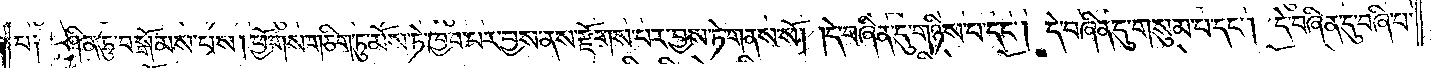པ༑ ཤིན་ཏུ་བསྒོམས་པས། ཕྱོགས་གཅིག་ཏུ་མོས་ཏེ་ཁྱབ་པར་བྱས་ནས་རྫོགས་པར་བྱས་ཏེ་གནས་སོ། །དེ་བཞིན་དུ་གཉིས་པ་དང༌། དེ་བཞིན་དུ་གསུམ་པ་དང༌། དེ་བཞིན་དུ་བཞི་པ་
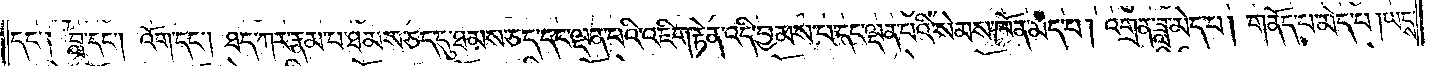དང༌། བླ་དང༌། འོག་དང༌། ཐད་ཀར་རྣམ་པ་ཐམས་ཅད་དུ་ཐམས་ཅད་དང་ལྡན་པའི་འཇིག་རྟེན་འདི་བྱམས་པ་དང་ལྡན་པའི་སེམས་ཁོན་མེད་པ། འགྲན་ཟླ་མེད་པ། གནོད་པ་མེད་པ། ཡངས་
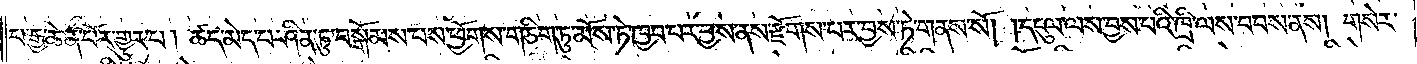པ་རྒྱ་ཆེན་པོར་གྱུར་པ། ཚད་མེད་པ་ཤིན་ཏུ་བསྒོམས་པས་ཕྱོགས་གཅིག་ཏུ་མོས་ཏེ་ཁྱབ་པར་བྱས་ནས་རྫོགས་པར་བྱས་ཏེ་གནས་སོ། །དངུལ་ལས་བྱས་པའི་ཁྲི་ལས་བབས་ནས། གསེར་
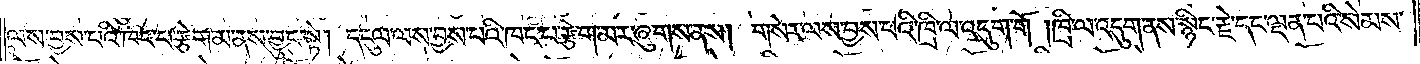ལས་བྱས་པའི་ཁང་པ་རྩེག་མ་ནས་བྱུང་སྟེ། དངུལ་ལས་བྱས་པའི་ཁང་པ་རྩེག་མར་ཞུགས་ནས། གསེར་ལས་བྱས་པའི་ཁྲི་ལ་འདུག་གོ །ཁྲི་ལ་འདུག་ནས་སྙིང་རྗེ་དང་ལྡན་པའི་སེམས་
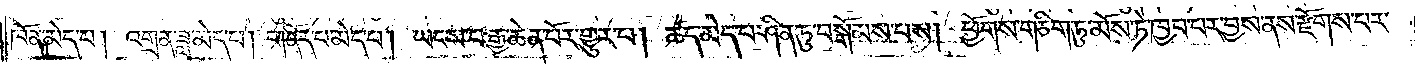ཁོན་མེད་པ། འགྲན་ཟླ་མེད་པ། གནོད་པ་མེད་པ། ཡངས་པ་རྒྱ་ཆེན་པོར་གྱུར་པ། ཚད་མེད་པ་ཤིན་ཏུ་བསྒོམས་པས། ཕྱོགས་གཅིག་ཏུ་མོས་ཏེ་ཁྱབ་པར་བྱས་ནས་རྫོགས་པར་
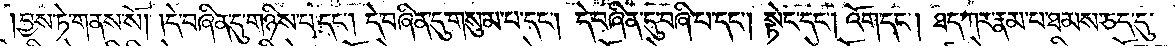བྱས་ཏེ་གནས་སོ། །དེ་བཞིན་དུ་གཉིས་པ་དང༌། དེ་བཞིན་དུ་གསུམ་པ་དང༌། དེ་བཞིན་དུ་བཞི་པ་དང༌། སྟེང་དང༌། འོག་དང༌། ཐད་ཀར་རྣམ་པ་ཐམས་ཅད་དུ་
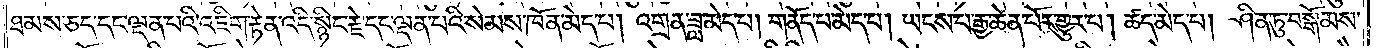ཐམས་ཅད་དང་ལྡན་པའི་འཇིག་རྟེན་འདི་སྙིང་རྗེ་དང་ལྡན་པའི་སེམས་ཁོན་མེད་པ། འགྲན་ཟླ་མེད་པ། གནོད་པ་མེད་པ། ཡངས་པ་རྒྱ་ཆེན་པོར་གྱུར་པ། ཚད་མེད་པ། ཤིན་ཏུ་བསྒོམས་
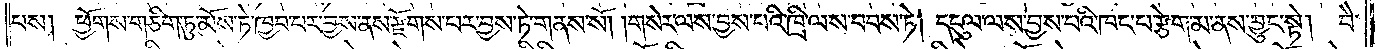པས། ཕྱོགས་གཅིག་ཏུ་མོས་ཏེ་ཁྱབ་པར་བྱས་ནས་རྫོགས་པར་བྱས་ཏེ་གནས་སོ། །གསེར་ལས་བྱས་པའི་ཁྲི་ལས་བབས་ཏེ། དངུལ་ལས་བྱས་པའི་ཁང་པ་རྩེག་མ་ནས་བྱུང་སྟེ། བཻ་
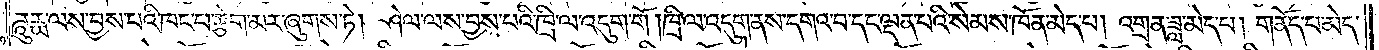ཌཱུརྻ་ལས་བྱས་པའི་ཁང་པ་རྩེག་མར་ཞུགས་ཏེ། ཤེལ་ལས་བྱས་པའི་ཁྲི་ལ་འདུག་གོ །ཁྲི་ལ་འདུག་ནས་དགའ་བ་དང་ལྡན་པའི་སེམས་ཁོན་མེད་པ། འགྲན་ཟླ་མེད་པ། གནོད་པ་མེད་
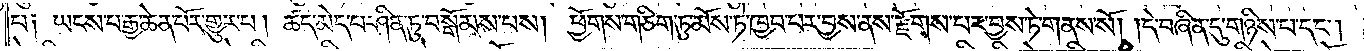པ༑ ཡངས་པ་རྒྱ་ཆེན་པོར་གྱུར་པ། ཚད་མེད་པ་ཤིན་ཏུ་བསྒོམས་པས། ཕྱོགས་གཅིག་ཏུ་མོས་ཏེ་ཁྱབ་པར་བྱས་ནས་རྫོགས་པར་བྱས་ཏེ་གནས་སོ། །དེ་བཞིན་དུ་གཉིས་པ་དང༌།
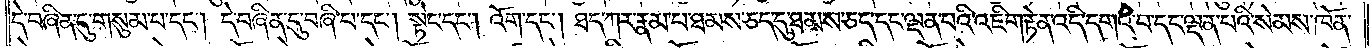དེ་བཞིན་དུ་གསུམ་པ་དང༌། དེ་བཞིན་དུ་བཞི་པ་དང༌། སྟེང་དང༌། འོག་དང༌། ཐད་ཀར་རྣམ་པ་ཐམས་ཅད་དུ་ཐམས་ཅད་དང་ལྡན་པའི་འཇིག་རྟེན་འདི་དགའ་བ་དང་ལྡན་པའི་སེམས་ཁོན་
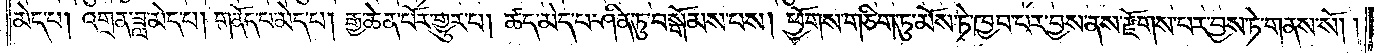མེད་པ། འགྲན་ཟླ་མེད་པ། གནོད་པ་མེད་པ། རྒྱ་ཆེན་པོར་གྱུར་པ། ཚད་མེད་པ་ཤིན་ཏུ་བསྒོམས་པས། ཕྱོགས་གཅིག་ཏུ་མོས་ཏེ་ཁྱབ་པར་བྱས་ནས་རྫོགས་པར་བྱས་ཏེ་གནས་སོ། །
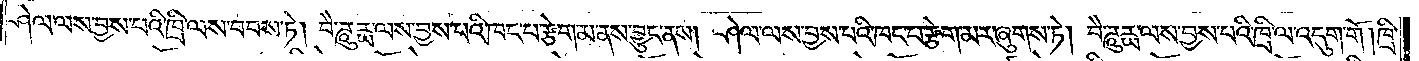ཤེལ་ལས་བྱས་པའི་ཁྲི་ལས་བབས་ཏེ། བཻ་ཌཱུརྻ་ལས་བྱས་པའི་ཁང་པ་རྩེག་མ་ནས་བྱུང་ནས། ཤེལ་ལ་ས་བྱས་པའི་ཁང་པ་རྩེག་མར་ཞུགས་ཏེ། བཻ་ཌཱུརྻ་ལས་བྱས་པའི་ཁྲི་ལ་འདུག་གོ །ཁྲི་
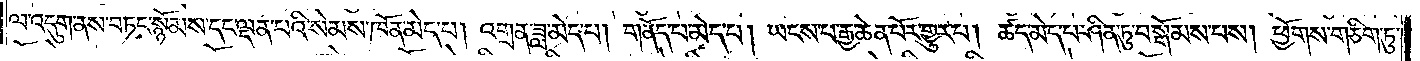ལ་འདུག་ནས་བཏང་སྙོམས་དང་ལྡན་པའི་སེམས་ཁོན་མེད་པ། འགྲན་ཟླ་མེད་པ། གནོད་པ་མེད་པ། ཡངས་པ་རྒྱ་ཆེན་པོར་གྱུར་པ། ཚད་མེད་པ་ཤིན་ཏུ་བསྒོམས་པས། ཕྱོགས་གཅིག་ཏུ་
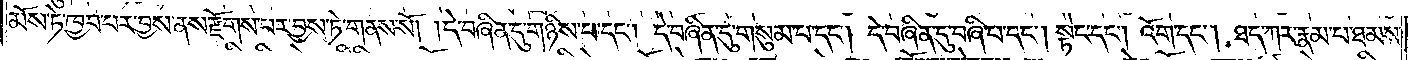མོས་ཏེ་ཁྱབ་པར་བྱས་ནས་རྫོགས་པར་བྱས་ཏེ་གནས་སོ། །དེ་བཞིན་དུ་གཉིས་པ་དང༌། དེ་བཞིན་དུ་གསུམ་པ་དང༌། དེ་བཞིན་དུ་བཞི་པ་དང༌། སྟེང་དང༌། འོག་དང༌། ཐད་ཀར་རྣམ་པ་ཐམས་
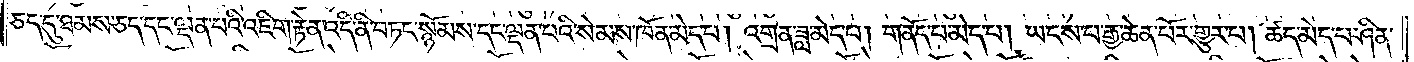ཅད་དུ་ཐམས་ཅད་དང་ལྡན་པའི་འཇིག་རྟེན་འདི་ནི་བཏང་སྙོམས་དང་ལྡན་པའི་སེམས་ཁོན་མེད་པ། འགྲན་ཟླ་མེད་པ། གནོད་པ་མེད་པ། ཡངས་པ་རྒྱ་ཆེན་པོར་གྱུར་པ། ཚད་མེད་པ་ཤིན་
